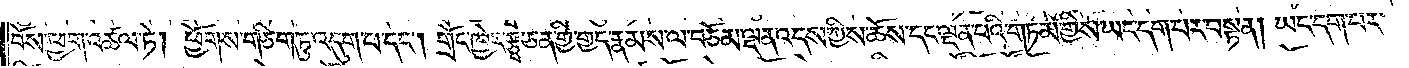བོས་ཕྱག་འཚལ་ཏེ། ཕྱོགས་གཅིག་ཏུ་འདུག་པ་དང༌། གྲོང་ཁྱེར་རྩྭ་ཅན་གྱི་གྱད་རྣམས་ལ་བཅོམ་ལྡན་འདས་ཀྱིས་ཆོས་དང་ལྡན་པའི་གཏམ་གྱིས་ཡང་དག་པར་བསྟན། ཡང་དག་པར་
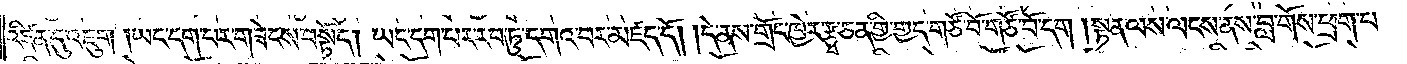འཛིན་དུ་འཇུག །ཡང་དག་པར་གཟེངས་བསྟོད། ཡང་དག་པར་རབ་ཏུ་དགའ་བར་མཛད་དོ། །དེ་ནས་གྲོང་ཁྱེར་རྩྭ་ཅན་གྱི་གྱད་གཙོ་བོ་གཙོ་བོ་དག །སྟན་ལས་ལངས་ནས་བླ་གོས་ཕྲག་པ་
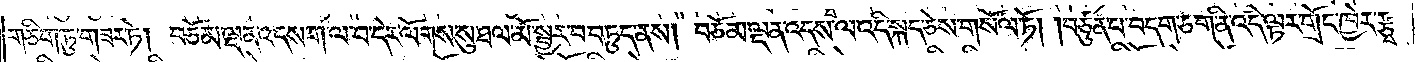གཅིག་ཏུ་གཟར་ཏེ། བཅོམ་ལྡན་འདས་ག་ལ་བ་དེར་ལོགས་སུ་ཐལ་མོ་སྦྱར་བ་བཏུད་ནས། བཅོམ་ལྡན་འདས་ལ་འདི་སྐད་ཅེས་གསོལ་ཏོ། །བཙུན་པ་བདག་ཅག་ནི་འདི་ལྟར་གྲོང་ཁྱེར་རྩྭ་
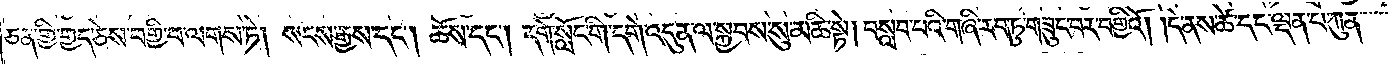ཅན་གྱི་གྱད་ཅེས་བགྱི་བ་ལགས་ཏེ། སངས་རྒྱས་དང༌། ཆོས་དང༌། དགེ་སློང་གི་དགེ་འདུན་ལ་སྐྱབས་སུ་མཆི་སྟེ། བསླབ་པའི་གཞི་རབ་ཏུ་གཟུང་བར་བགྱིའོ། །དེ་ནས་ཚེ་དང་ལྡན་པ་ཀུན་
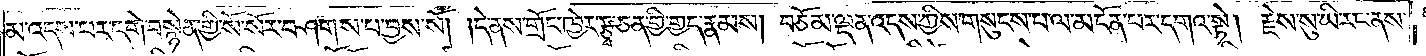མ་འདས་པར་དགེ་བསྙེན་གྱི་སོ་སོར་བཤགས་པ་བྱས་སོ། །དེ་ནས་གྲོང་ཁྱེར་རྩྭ་ཅན་གྱི་གྱད་རྣམས། བཅོམ་ལྡན་འདས་ཀྱིས་གསུངས་པ་ལ་མངོན་པར་དགའ་སྟེ། རྗེས་སུ་ཡི་རང་ནས་
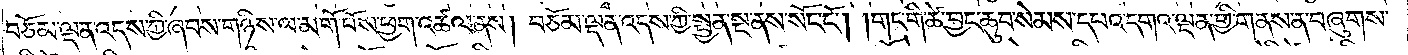བཅོམ་ལྡན་འདས་ཀྱི་ཞབས་གཉིས་ལ་མགོ་བོས་ཕྱག་འཚལ་ནས། བཅོམ་ལྡན་འདས་ཀྱི་སྤྱན་སྔ་ནས་སོང་ངོ༌། །གང་གི་ཚེ་བྱང་ཆུབ་སེམས་དཔའ་དགའ་ལྡན་གྱི་གནས་ན་བཞུགས་
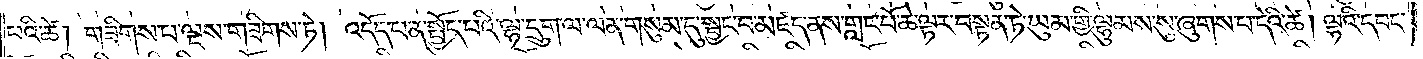པའི་ཚེ། གཟིགས་པ་ལྔས་གཟིགས་ཏེ། འདོད་པ་ན་སྤྱོད་པའི་ལྷ་དྲུག་ལ་ལན་གསུམ་དུ་སྦྱང་བ་མཛད་ནས་གླང་པོ་ཆེ་ལྟར་བསྟན་ཏེ་ཡུམ་གྱི་ལྷུམས་སུ་ཞུགས་པ་དེའི་ཚེ། ལྷའི་དབང་
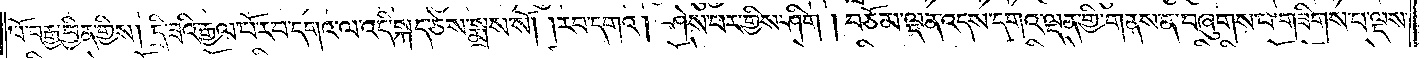པོ་བརྒྱ་བྱིན་གྱིས། དྲི་ཟའི་རྒྱལ་པོ་རབ་དགའ་ལ་འདི་སྐད་ཅེས་སྨྲས་སོ། །རབ་དགའ། ཤེས་པར་གྱིས་ཤིག །བཅོམ་ལྡན་འདས་དགའ་ལྡན་གྱི་གནས་ན་བཞུགས་པ་གཟིགས་པ་ལྔས་
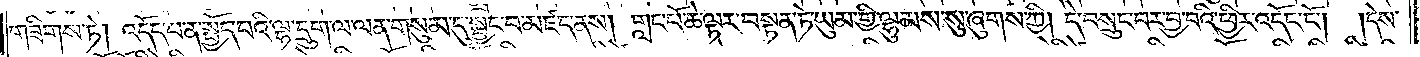གཟིགས་ཏེ། འདོད་པ་ན་སྤྱོད་པའི་ལྷ་དྲུག་ལ་ལན་གསུམ་དུ་སྦྱང་བ་མཛད་ནས། གླང་པོ་ཆེ་ལྟར་བསྟན་ཏེ་ཡུམ་གྱི་ལྷུམས་སུ་ཞུགས་ཀྱི། དེ་བསྲུང་བར་བྱ་བའི་ཕྱིར་འདོང་ངོ༌། །དེས་
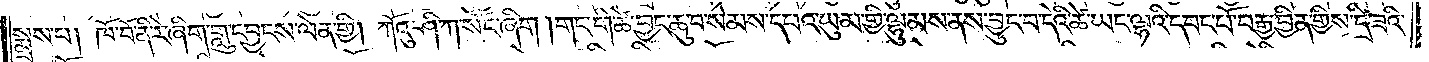སྨྲས་པ། ཁོ་བོ་ནི་རེ་ཞིག་གླུ་དབྱངས་ལེན་གྱི། ཀོའུ་ཤི་ཀ་སོང་ཞིག །གང་གི་ཚེ་བྱང་ཆུབ་སེམས་དཔའ་ཡུམ་གྱི་ལྷུམས་ནས་བྱུང་བ་དེའི་ཚེ་ཡང་ལྷའི་དབང་པོ་བརྒྱ་བྱིན་གྱིས་དྲི་ཟའི་
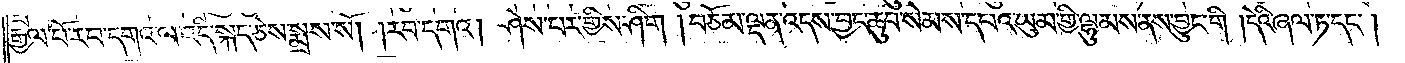རྒྱལ་པོ་རབ་དགའ་ལ་འདི་སྐད་ཅེས་སྨྲས་སོ། །རབ་དགའ། ཤེས་པར་གྱིས་ཤིག །བཅོམ་ལྡན་འདས་བྱང་ཆུབ་སེམས་དཔའ་ཡུམ་གྱི་ལྷུམས་ནས་བྱུང་གི །དེའི་ཞལ་ཏ་དང༌།
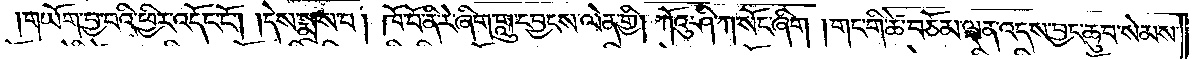གཡོག་བྱ་བའི་ཕྱིར་འདོང་ངོ༌། །དེས་སྨྲས་པ། ཁོ་བོ་ནི་རེ་ཞིག་གླུ་དབྱངས་ལེན་གྱི། ཀོའུ་ཤི་ཀ་སོང་ཞིག །གང་གི་ཚེ་བཅོམ་ལྡན་འདས་བྱང་ཆུབ་སེམས་
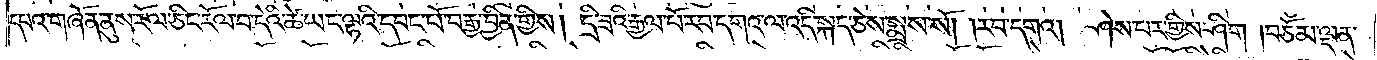དཔའ་གཞོན་ནུས་རོལ་ཅིང་རོལ་བ་དེའི་ཚེ་ཡང་ལྷའི་དབང་པོ་བརྒྱ་བྱིན་གྱིས། དྲི་ཟའི་རྒྱལ་པོ་རབ་དགའ་ལ་འདི་སྐད་ཅེས་སྨྲས་སོ། །རབ་དགའ། ཤེས་པར་གྱིས་ཤིག །བཅོམ་ལྡན་
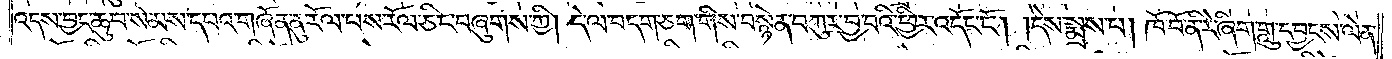འདས་བྱང་ཆུབ་སེམས་དཔའ་གཞོན་ནུ་རོལ་པས་རོལ་ཅིང་བཞུགས་ཀྱི། དེ་ལ་བདག་ཅག་གིས་བསྙེན་བཀུར་བྱ་བའི་ཕྱིར་འདོང་ངོ༌། །དེས་སྨྲས་པ། ཁོ་བོ་ནི་རེ་ཞིག་གླུ་དབྱངས་ལེན་
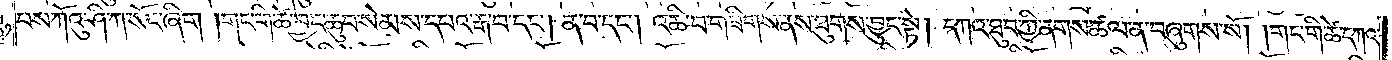པས་ཀོའུ་ཤི་ཀ་སོང་ཞིག །གང་གི་ཚེ་བྱང་ཆུབ་སེམས་དཔའ་རྒ་བ་དང༌། ན་བ་དང༌། འཆི་བ་གཟིགས་ནས་ཐུགས་བྱུང་སྟེ། དཀའ་ཐུབ་ཀྱི་ནགས་ཚལ་ན་བཞུགས་སོ། །གང་གི་ཚེ་དཀའ་
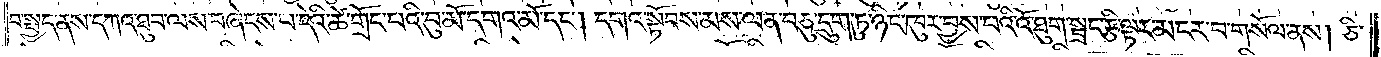བ་སྤྱད་ནས་དཀའ་ཐུབ་ལས་བཞེངས་པ་དེའི་ཚེ་གྲོང་བའི་བུ་མོ་དགའ་མོ་དང༌། དགའ་སྟོབས་མས་ལན་བཅུ་དྲུག་ཏུ་ཉིང་ཁུར་བྱས་པའི་འོ་ཐུག་སྦྲང་རྩི་ལྟར་མངར་བ་གསོལ་ནས། ཅི་
